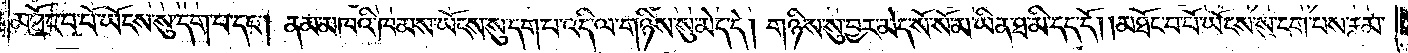མཐོང་བ་པོ་ཡོངས་སུ་དག་པ་དང༌། ནམ་མཁའི་ཁམས་ཡོངས་སུ་དག་པ་འདི་ལ་གཉིས་སུ་མེད་དེ། གཉིས་སུ་བྱར་མེད་སོ་སོ་མ་ཡིན་ཐ་མི་དད་དོ། །མཐོང་བ་པོ་ཡོངས་སུ་དག་པས་རྣམ་
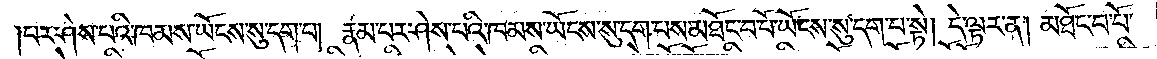པར་ཤེས་པའི་ཁམས་ཡོངས་སུ་དག་པ། རྣམ་པར་ཤེས་པའི་ཁམས་ཡོངས་སུ་དག་པས་མཐོང་བ་པོ་ཡོངས་སུ་དག་པ་སྟེ། དེ་ལྟར་ན། མཐོང་བ་པོ་
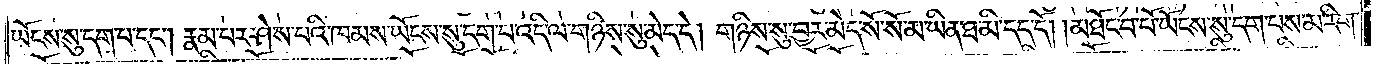ཡོངས་སུ་དག་པ་དང༌། རྣམ་པར་ཤེས་པའི་ཁམས་ཡོངས་སུ་དག་པ་འདི་ལ་གཉིས་སུ་མེད་དེ། གཉིས་སུ་བྱར་མེད་སོ་སོ་མ་ཡིན་ཐ་མི་དད་དོ། །མཐོང་བ་པོ་ཡོངས་སུ་དག་པས་མ་རིག་
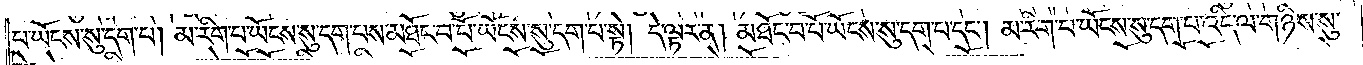པ་ཡོངས་སུ་དག་པ། མ་རིག་པ་ཡོངས་སུ་དག་པས་མཐོང་བ་པོ་ཡོངས་སུ་དག་པ་སྟེ། དེ་ལྟར་ན། མཐོང་བ་པོ་ཡོངས་སུ་དག་པ་དང༌། མ་རིག་པ་ཡོངས་སུ་དག་པ་འདི་ལ་གཉིས་སུ་
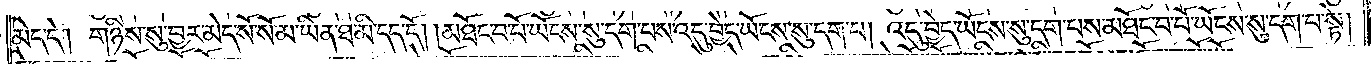མེད་དེ། གཉིས་སུ་བྱར་མེད་སོ་སོ་མ་ཡིན་ཐ་མི་དད་དོ། །མཐོང་བ་པོ་ཡོངས་སུ་དག་པས་འདུ་བྱེད་ཡོངས་སུ་དག་པ། འདུ་བྱེད་ཡོངས་སུ་དག་པས་མཐོང་བ་པོ་ཡོངས་སུ་དག་པ་སྟེ།
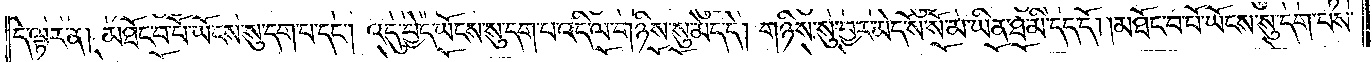དེ་ལྟར་ན། མཐོང་བ་པོ་ཡོངས་སུ་དག་པ་དང༌། འདུ་བྱེད་ཡོངས་སུ་དག་པ་འདི་ལ་གཉིས་སུ་མེད་དེ། གཉིས་སུ་བྱར་མེད་སོ་སོ་མ་ཡིན་ཐ་མི་དད་དོ། །མཐོང་བ་པོ་ཡོངས་སུ་དག་པས་
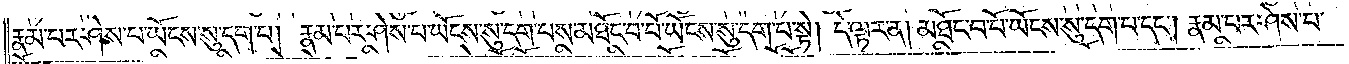རྣམ་པར་ཤེས་པ་ཡོངས་སུ་དག་པ། རྣམ་པར་ཤེས་པ་ཡོངས་སུ་དག་པས་མཐོང་བ་པོ་ཡོངས་སུ་དག་པ་སྟེ། དེ་ལྟར་ན། མཐོང་བ་པོ་ཡོངས་སུ་དག་པ་དང༌། རྣམ་པར་ཤེས་པ་
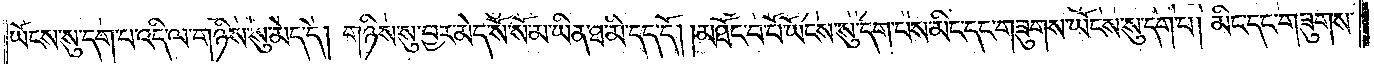ཡོངས་སུ་དག་པ་འདི་ལ་གཉིས་སུ་མེད་དེ། གཉིས་སུ་བྱར་མེད་སོ་སོ་མ་ཡིན་ཐ་མི་དད་དོ། །མཐོང་བ་པོ་ཡོངས་སུ་དག་པས་མིང་དང་གཟུགས་ཡོངས་སུ་དག་པ། མིང་དང་གཟུགས་
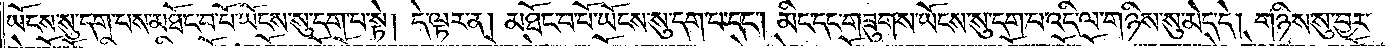ཡོངས་སུ་དག་པས་མཐོང་བ་པོ་ཡོངས་སུ་དག་པ་སྟེ། དེ་ལྟར་ན། མཐོང་བ་པོ་ཡོངས་སུ་དག་པ་དང༌། མིང་དང་གཟུགས་ཡོངས་སུ་དག་པ་འདི་ལ་གཉིས་སུ་མེད་དེ། གཉིས་སུ་བྱར་
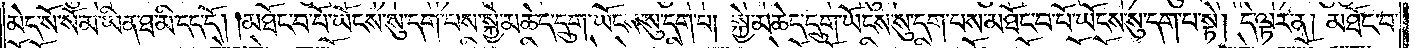མེད་སོ་སོ་མ་ཡིན་ཐ་མི་དད་དོ། །མཐོང་བ་པོ་ཡོངས་སུ་དག་པས་སྐྱེ་མཆེད་དྲུག་ཡོངས་སུ་དག་པ། སྐྱེ་མཆེད་དྲུག་ཡོངས་སུ་དག་པས་མཐོང་བ་པོ་ཡོངས་སུ་དག་པ་སྟེ། དེ་ལྟར་ན། མཐོང་བ་
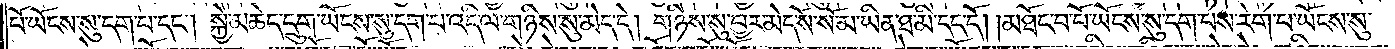པོ་ཡོངས་སུ་དག་པ་དང༌། སྐྱེ་མཆེད་དྲུག་ཡོངས་སུ་དག་པ་འདི་ལ་གཉིས་སུ་མེད་དེ། གཉིས་སུ་བྱར་མེད་སོ་སོ་མ་ཡིན་ཐ་མི་དད་དོ། །མཐོང་བ་པོ་ཡོངས་སུ་དག་པས་རེག་པ་ཡོངས་སུ་
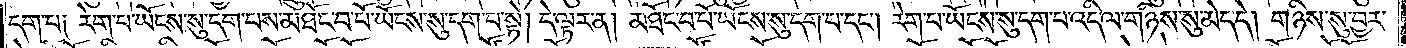དག་པ༑ རེག་པ་ཡོངས་སུ་དག་པས་མཐོང་བ་པོ་ཡོངས་སུ་དག་པ་སྟེ། དེ་ལྟར་ན། མཐོང་བ་པོ་ཡོངས་སུ་དག་པ་དང༌། རེག་པ་ཡོངས་སུ་དག་པ་འདི་ལ་གཉིས་སུ་མེད་དེ། གཉིས་སུ་བྱར་
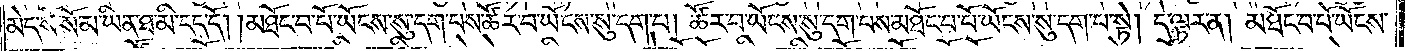མེད་སོ་སོ་མ་ཡིན་ཐ་མི་དད་དོ། །མཐོང་བ་པོ་ཡོངས་སུ་དག་པས་ཚོར་བ་ཡོངས་སུ་དག་པ། ཚོར་བ་ཡོངས་སུ་དག་པས་མཐོང་བ་པོ་ཡོངས་སུ་དག་པ་སྟེ། དེ་ལྟར་ན། མཐོང་བ་པོ་ཡོངས་
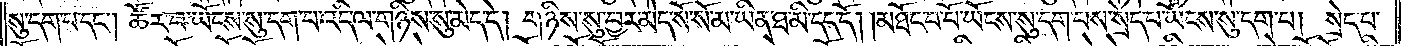སུ་དག་པ་དང༌། ཚོར་བ་ཡོངས་སུ་དག་པ་འདི་ལ་གཉིས་སུ་མེད་དེ། གཉིས་སུ་བྱར་མེད་སོ་སོ་མ་ཡིན་ཐ་མི་དད་དོ། །མཐོང་བ་པོ་ཡོངས་སུ་དག་པས་སྲེད་པ་ཡོངས་སུ་དག་པ། སྲེད་པ་
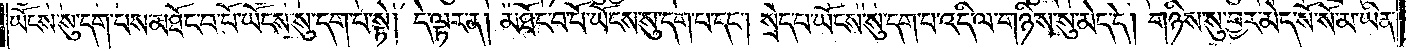ཡོངས་སུ་དག་པས་མཐོང་བ་པོ་ཡོངས་སུ་དག་པ་སྟེ། དེ་ལྟར་ན། མཐོང་བ་པོ་ཡོངས་སུ་དག་པ་དང༌། སྲེད་པ་ཡོངས་སུ་དག་པ་འདི་ལ་གཉིས་སུ་མེད་དེ། གཉིས་སུ་བྱར་མེད་སོ་སོ་མ་ཡིན་
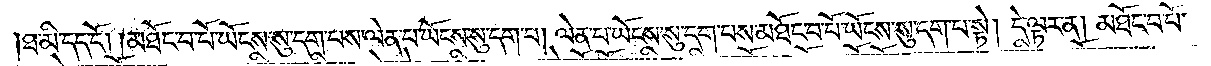ཐ་མི་དད་དོ། །མཐོང་བ་པོ་ཡོངས་སུ་དག་པས་ལེན་པ་ཡོངས་སུ་དག་པ། ལེན་པ་ཡོངས་སུ་དག་པས་མཐོང་བ་པོ་ཡོངས་སུ་དག་པ་སྟེ། དེ་ལྟར་ན། མཐོང་བ་པོ་
